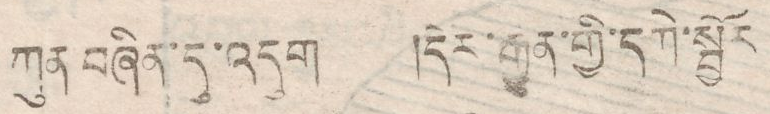ཀུན་བཞིན་དུ་འདུག །དེར་རྒྱུན་གྱི་དགེ་སྦྱོར
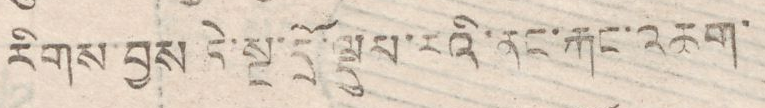རིགས་བྱས དེ་སྔ་དྲོ་ལྡུམ་རའི་ནང་རྐང་འཆག་
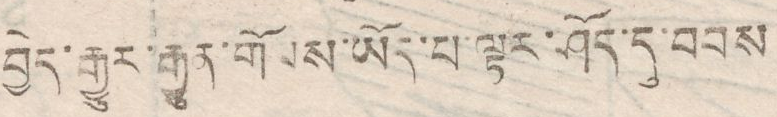བྱེད་རྒྱུར་རྒྱུན་གོམས་ཡོད་པ་ལྟར་ཤོད་དུ་བབས
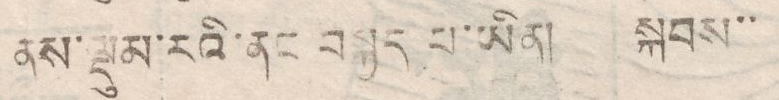ནས་སྡུམ་རའི་ནང་བསྐྱད་པ་ཡིན། སྐབས་་
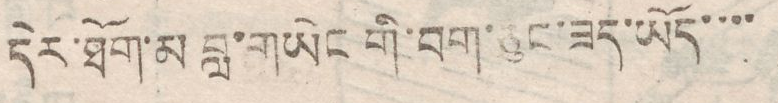དེར་ཐོག་མ་བླ་གཡེང་གི་བག་ཅུང་ཟད་ཡོད་་་་
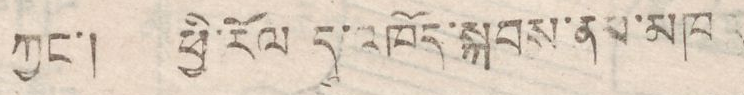ཀྱང་། ཕྱི་རོལ དུ་འཁོད་སྐབས་ནམ་མཁའ་
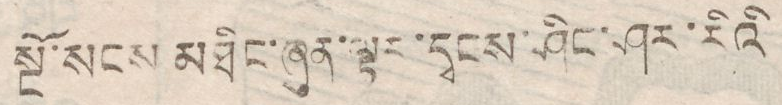སྔོ་སངས་མཐིང་ཞུན་ལྟར་དྭངས་ཤིང་ཤར་རིའི
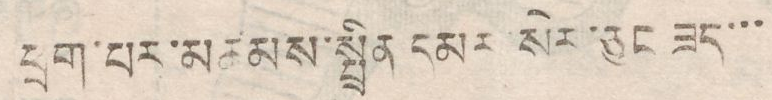དྲག་པར་མཚམས་སྤྲིན དམར་སེར་ཅུང ཟད་་་
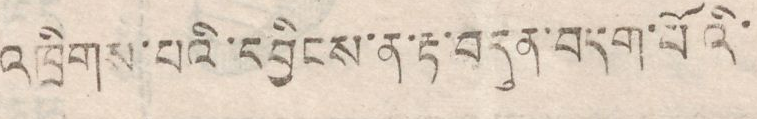འཁྲིགས་པའི་དབྱིངས་ན་རྟ་བདུན་བདག་པོའི་
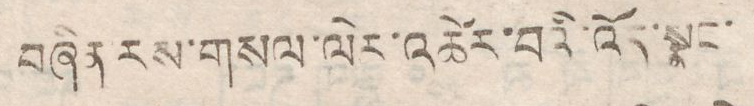བཞིན རས་གསལ་ལེར་འཚེར་བའི་འོད་སྣང་
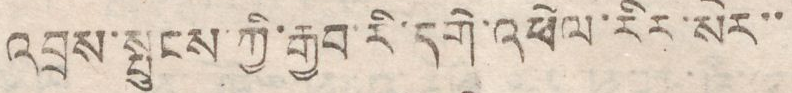འབྲས་སྤུངས་ཀྱི་རྒྱབ་རི་དགེ་འཕེལ་རིར་སེར་་
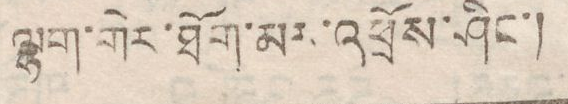ལྷག་གེར་ཐོག་མར་འཕྲོས་ཤིང་།
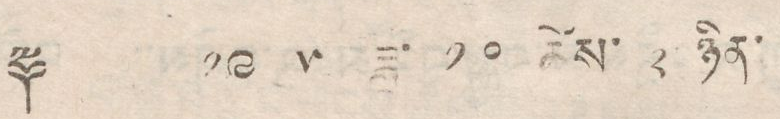༈ ༡༩ ༥ ཟླ་ ༡༠ ཚེས་ ༢ ཉིན་
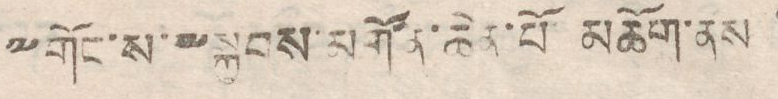༸གོང་ས་༸སྐྱབས་མགོན་ཆེན་པོ་མཆོག་ནས
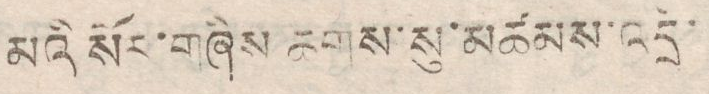མའི་སོར་གཞིས ཆགས་སུ་མཚམས་འདྲི་
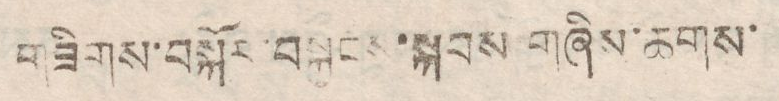གཟིགས་བསྐོར་བསྐྱངས་སྐབས་གཞིས་ཆགས་
